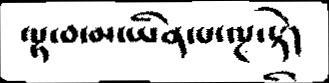ལྟ་བ་མ་ཡིན་པ་ལྔ་སྟེ།
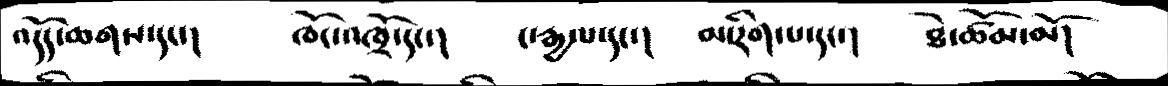འདོད་ཆགས་དང་།    ཁོང་འཁྲོ་དང་།    ང་རྒྱལ་དང་།    མ་རིག་པ་དང་།   ཐེ་ཚོམ་མོ།
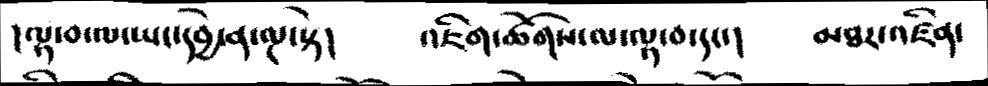།ལྟ་བ་ལ་ཡང་དབྱེ་ན་ལྔ་སྟེ།    འཇིག་ཚོགས་ལ་ལྟ་བ་དང་།    མཐར་འཛིན་
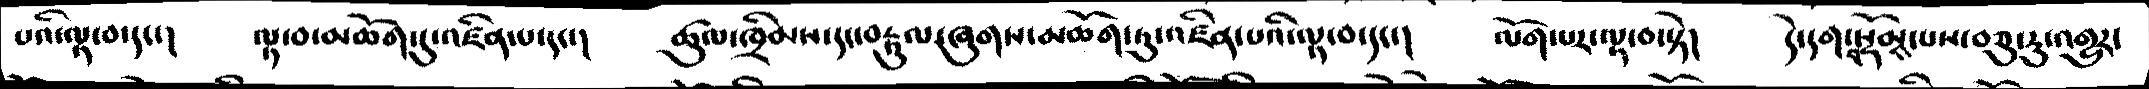པའི་ལྟ་བ་དང་།    ལྟ་བ་མཆོག་དུ་འཛིན་པ་དང་།    ཚུལ་ཁྲིམས་དང་བརྟུལ་ཞུགས་མཆོག་ཏུ་འཛིན་པའི་ལྟ་བ་དང་།    ལོག་པར་ལྟ་བ་སྟེ།    དེ་དག་བསྡོམས་པས་བཅུ་རུ་འགྱུར་
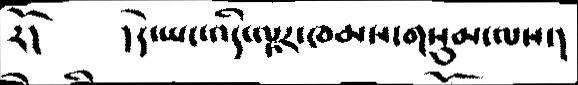རོ།     །དེ་ཡང་འདི་ལྟར་ཁམས་གསུམ་ལས་།
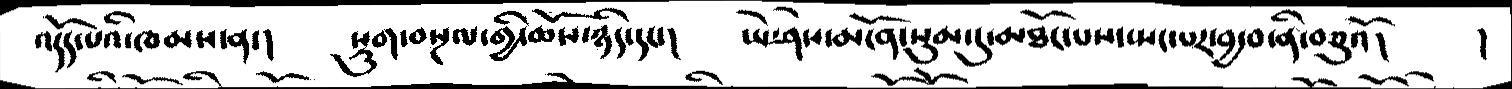འདོད་པའི་ཁམས་ན་།  སྡུག་བསྔལ་གྱི་ཆོས་ཉིད་དང་།  ཡེ་ཤེས་མངོན་སུམ་དུ་མཐོང་པས་སྤང་པར་བྱ་བ་ནི་བཅུའོ།  །
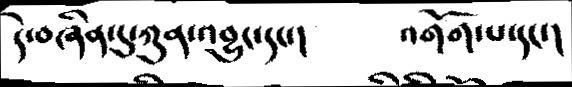དེ་བཞིན་དུ་ཀུན་འབྱུང་དང་།  འགོག་པ་དང་།
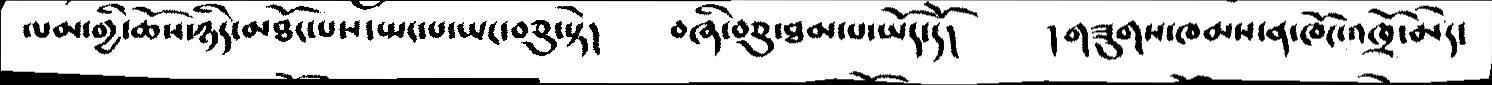ལམ་གྱི་ཆོས་ཉིད་མཐོང་པས་སྤང་པ་ཡང་བཅུ་སྟེ།  བཞི་བཅུ་ཐམ་པ་ཡོད་དོ།  ། གཟུགས་ཁམས་ན་ཁོང་འཁྲོ་མེད་
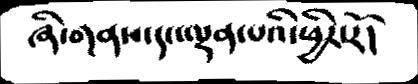ཞི་གནས་དང་ལྡན་པའི་ཕྱིར་རོ།
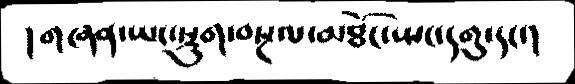།གཞན་ཡང་སྡུག་བསྔལ་མཐོང་སྤང་དགུ་དང་།
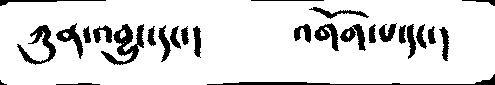ཀུན་འབྱུང་དང་།    འགོག་པ་དང་།
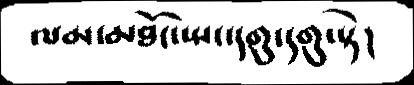ལམ་མཐོང་སྤང་དགུ་དགུ་སྟེ།
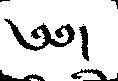༄༅།
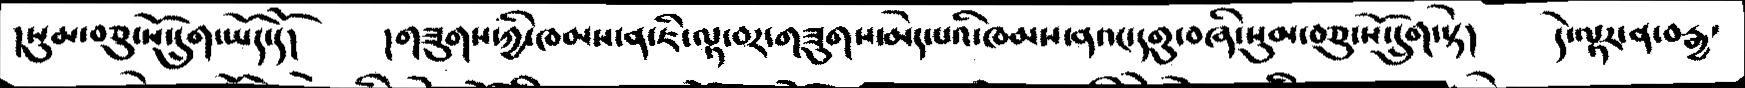།སུམ་བཅུ་སོ་དྲུག་ཡོད་དོ།  །གཟུགས་ཀྱི་ཁམས་ན་ཇི་ལྟ་བར་གཟུགས་མེད་པའི་ཁམས་ནའང་དགུ་བཞི་སུམ་བཅུ་སོ་དྲུག་སྟེ།  དེ་ལྟར་ན་བརྒྱ་
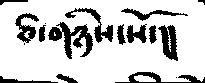ཅི་གཉིས་སོ་།།
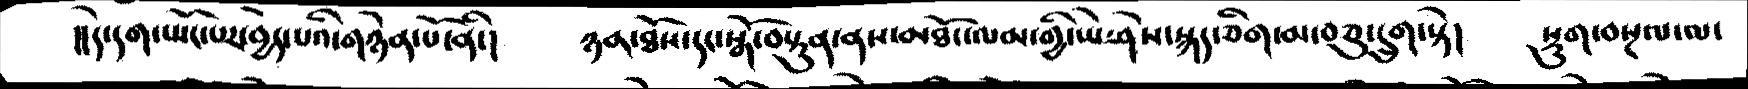།།དེ་དག་སྤོང་པར་བྱེད་པའི་གཉེན་པོ་ནི་།  ཉན་ཐོས་དང་སྒོ་བསྟུན་ནས་མཐོང་ལམ་གྱི་ཡེ་ཤེས་སྐད་ཅིག་མ་བཅུ་དྲུག་སྟེ།  སྡུག་བསྔལ་ལ་
